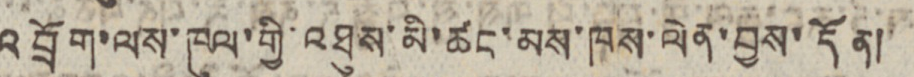འབྲོག་ལས་ཁུལ་གྱི་འཐུས་མི་ཚང་མས་ཁས་ལེན་བྱས་དོན།
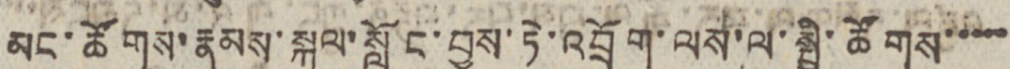མང་ཚོགས་རྣམས་སྐུལ་སློང་བྱས་ཏེ་འབྲོག་ལས་ལ་སྤྱི་ཚོགས་་་་་
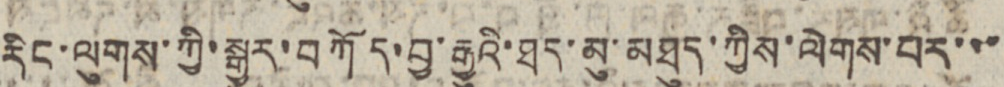རིང་ལུགས་ཀྱི་སྒྱུར་བཀོད་བྱ་རྒྱུའི་ཐད་མུ་མཐུད་ཀྱིས་ལེགས་པར་་་
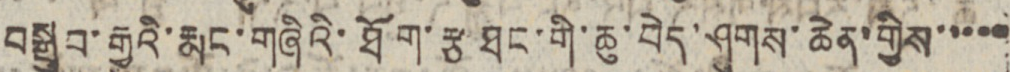བསྒྲུབ་རྒྱུའི་རྨང་གཞིའི་ཐོག་རྩ ཐང་གི་ཆུ་བེད་ཤུགས་ཆེན་གྱིས་་་་་
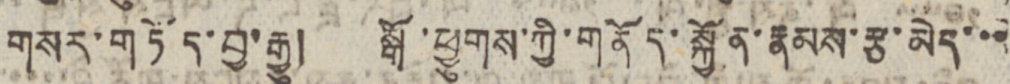གསར་གཏོད་བྱ་རྒྱུ། སྒོ་ཕྱུགས་ཀྱི་གནོད་སྐྱོན་རྣམས་རྩ་མེད་་་
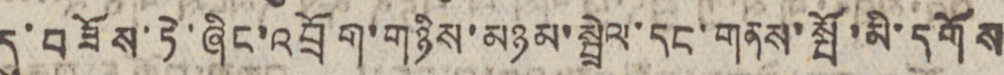དུ་བཟོས་ཏེ་ཞིང་འབྲོག་གཉིས་མཉམ་སྦྲེལ་དང་གནས་སྤོ་མི་དགོས
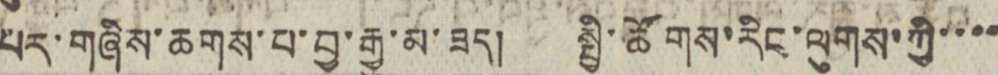པར་གཞིས་ཆགས་པ་བྱ་རྒྱུ་མ་ཟད། སྤྱི་ཚོགས་རིང་ལུགས་ཀྱི་་་་
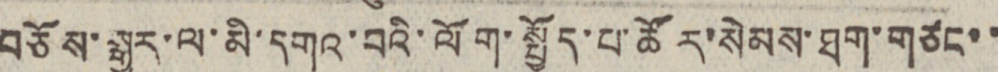བཅོས་སྒྱུར་ལ་མི་དགའ་བའི་ལོག་སྤྱོད་པ་ཚོར་སེམས་ཐག་གཙང་་
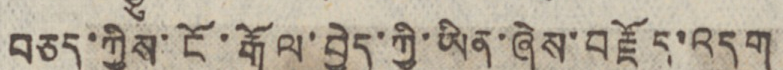བཅད་ཀྱིས་ངོ་རྒོལ་བྱེད་ཀྱི་ཡིན་ཞེས་བརྗོད་འདུག
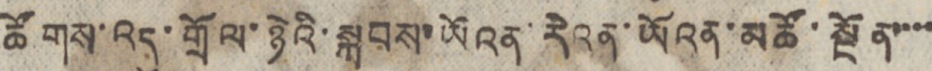ཚོགས་འདུ་གྲོལ་ཉེའི་སྐབས་ཡོའན་རེའན་ཡོའན་མཚོ་སྔོན་་་་
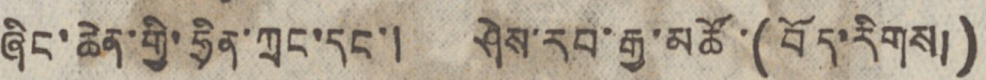ཞིང་ཆེན་གྱི་ཧྲིན་ཀྲང་དང་། ཤེས་རབ་རྒྱ་མཚོ་(བོད་རིགས།)
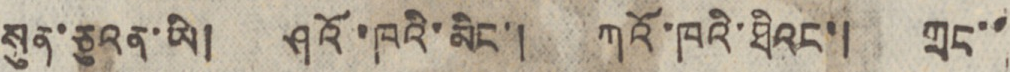སུན་ཅུའན་ཡི། ཤའོ་ཁའི་མིང་། ཀའོ་ཁའི་ཐིའང་། གྲང་་
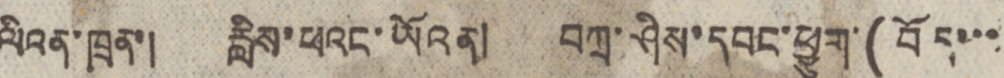ལིའན་ཁྲན་། རླིས་ཕའང་ཡོའན། བཀྲ་ཤིས་དབང་ཕྱུག་(བོད་་་
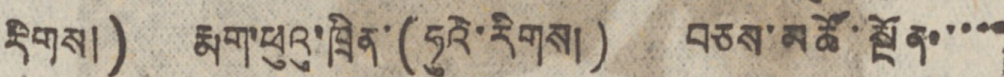རིགས།) རྨག་ཕུའུ་ཁྲིན་(ཧུའེ་རིགས།) བཅས་མཚོ་སྔོན་་་་་
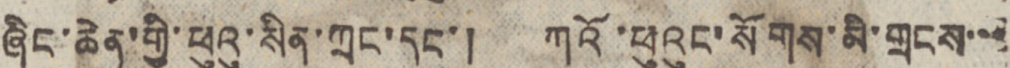ཞིང་ཆེན་གྱི་ཕུའུ་སིན་ཀྲང་དང་། ཀའོ་ཕུའུང་སོགས་མི་གྲངས་་་
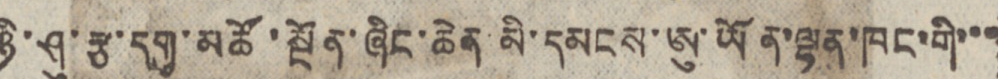ཉི་ཤུ་རྩ་དགུ་མཚོ་སྔོན་ཞིང་ཆེན་མི་དམངས་ཨུ་ཡོན་ལྷན་ཁང་གི་་་
